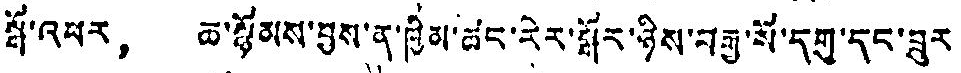སྒོ་འཕར， ཆ་སྙོམས་བྱས་ན་ཁྱིམ་ཚང་རེར་སྒོར་ཉིས་བརྒྱ་སོ་དགུ་དང་ཟུར
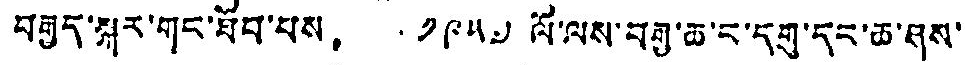བརྒྱད་སྐར་གང་ཐོབ་པས， ༡༩༥༧ ལོ་ལས་བརྒྱ་ཆ་ང་དགུ་དང་ཆ་ཤས་
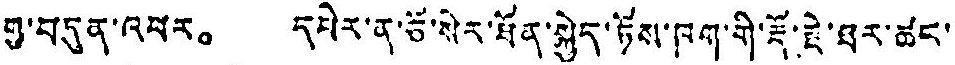གྱ་བདུན་འཕར。 དཔེར་ན་ཅོ་སེར་ཐོན་སྐྱེད་ཏོས་ཁག་གི་རྡོ་རྗེ་ཐར་ཚང་
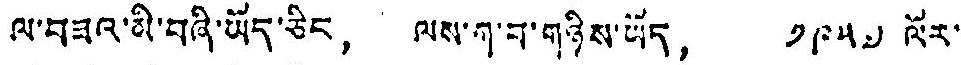ལ་བཟའ་མི་བཞི་ཡོད་ཅིང， ལས་ག་བ་གཉིས་ཡོད， ༡༩༥༧ ལོར་
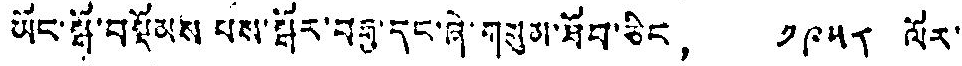ཡོང་བྤོ་བསྡོམས པས་སྒོར་བརྒྱ་དང་ཞེ་གསུམ་ཐོབ་ཅིང， ༡༩༥༨ ལོར་
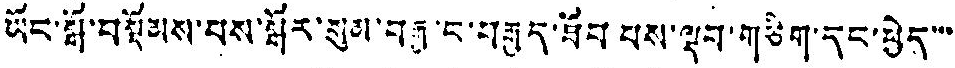ཡོང་སྒོ་བསྡོམས་པས་སྒོར་སུམ་བརྒྱ་ང་བརྒྱད་ཐོབ པས་ལྡབ་གཅིག་དང་བྱེད་་་
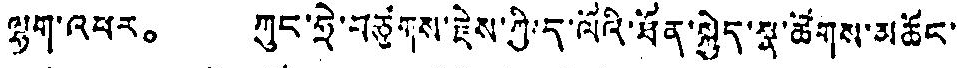ལྷག་འཕར。 ཀུང་ཧྲེ་བཙུགས་རྗེས་ཀྱི་ད་ལོའི་ཐོན་སྐྱེད་སྣ་ཚོགས་མཆོང་
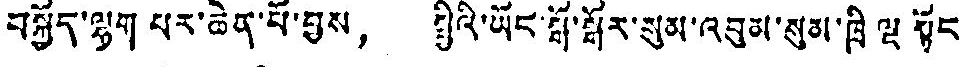བསྐྱོད་ལྷག པར་ཆེན་པོ་བྱས， སྤྱིའི་ཡོང་སྒོ་སྒོར་སུམ་འབུམ་སུམ་ཁྲི ལྔ སྟོང་
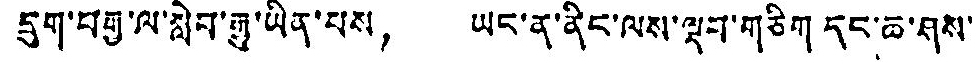དྲུག་བརྒྱ་ལ་སླེབ་རྒྱུ་ཡིན་པས， ཡང་ན་ནིང་ལས་ལྡབ་གཅིག དང་ཆ་ཤས་
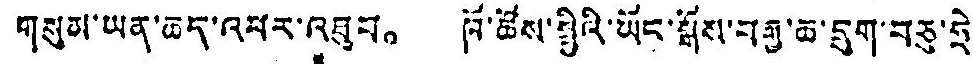གསུམ་ཡན་ཆད་འཕར་འཐུབ。 ཁོ་ཚོས་སྤྱིའི་ཡོང་སྒོས་བརྒྱ་ཆ་དྲུག་བཅུ་དྲེ་
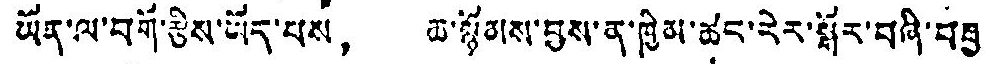ཡོན་ལ་བགོ་རྩིས་ཡོད་པས， ཆ་སྙོམས་བྱས་ན་ཁྱིམ་ཚང་རེར་སྒོར་བཞི་བརྒྱ
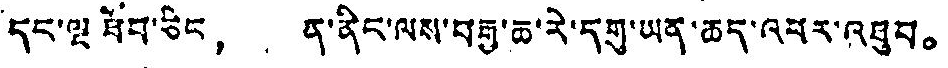དང་ལྔ ཐེབ་ཅིང， ན་ནིང་ལས་བརྒྱ་ཆ་རེ་དགུ་ཡན་ཆད་འབར་འཐུབ。
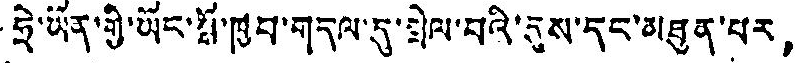ཧྲེ་ཡོན་གྱི་ཡོང་སྤོ་ཁྱབ་གདལ་དུ་སྤེལ་བའི་དུས་དང་མཐུན་པར，
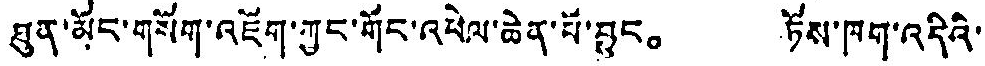ཐུན་མོང་གསོག་འཇོག་ཀྱང་གོང་འཕེལ་ཆེན་པོ་བྱུང。 ཏོས་ཁག་འདིའི་
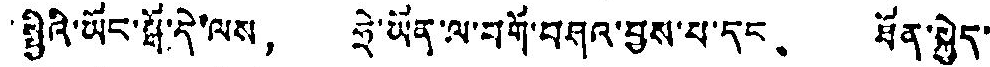སྤྱིའི་ཡོང་སྒོ་དེ་ལས， ཧྲེ་ཡོན་ལ་བགོ་བཤའ་བྱས་པ་དང， ཐོན་སྐྱེད་
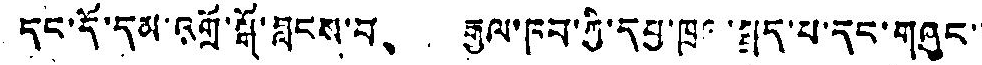དང་དོ་དམ་འགྲོ་སྒོ་བླངས་བ、 རྒྱལ་ཁབ་ཀྱི་དཔྱ་ཁྲུལ་སྤྲད་པ་དང་གཞུང་་
